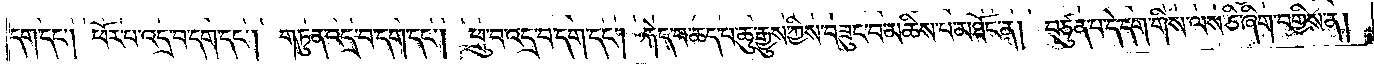དག་དང༌། ཕོར་པ་འདྲ་བ་དག་དང༌། གཏུན་འདྲ་བ་དག་དང༌། ཕྲུ་བ་འདྲ་བ་དག་དང༌། རྐེད་པ་ཆད་པ་ཆུ་རྒྱུས་ཀྱིས་བཟུང་བ་མཆིས་པ་མཐོང་ན། བཙུན་པ་དེ་དག་གིས་ལས་ཅི་ཞིག་བགྱིས་ན།
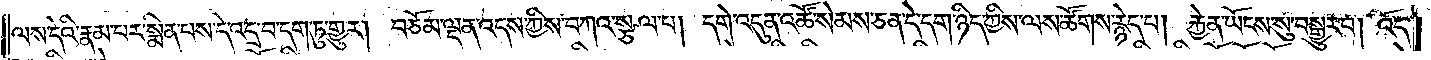ལས་དེའི་རྣམ་པར་སྨིན་པས་དེ་འདྲ་བ་དག་ཏུ་གྱུར། བཅོམ་ལྡན་འདས་ཀྱིས་བཀའ་སྩལ་པ། དགེ་འདུན་འཚོ་སེམས་ཅན་དེ་དག་ཉིད་ཀྱིས་ལས་ཚོགས་རྙེད་པ། རྐྱེན་ཡོངས་སུ་བསྒྱུར་བ། འོད་
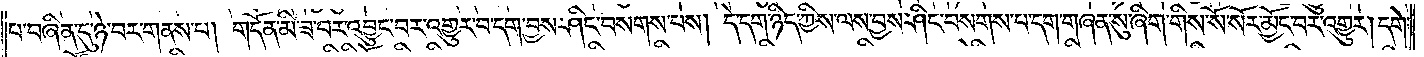པ་བཞིན་དུ་ཉེ་བར་གནས་པ། གདོན་མི་ཟ་བར་འབྱུང་བར་འགྱུར་བ་དག་བྱས་ཤིང་བསགས་པས། དེ་དག་ཉིད་ཀྱིས་ལས་བྱས་ཤིང་བསགས་པ་དག་གཞན་སུ་ཞིག་གིས་སོ་སོར་མྱོང་བར་འགྱུར། དགེ་
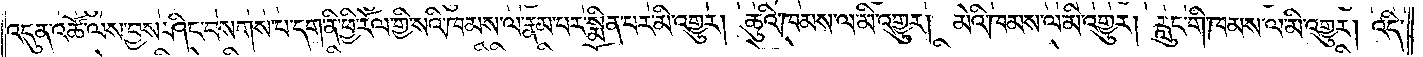འདུན་འཚོ་ལས་བྱས་ཤིང་བསགས་པ་དག་ནི་ཕྱི་རོལ་གྱི་སའི་ཁམས་ལ་རྣམ་པར་སྨིན་པར་མི་འགྱུར། ཆུའི་ཁམས་ལ་མི་འགྱུར། མེའི་ཁམས་ལ་མི་འགྱུར། རླུང་གི་ཁམས་ལ་མི་འགྱུར། འདི་
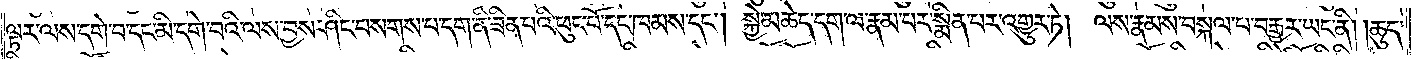ལྟར་ལས་དགེ་བ་དང་མི་དགེ་བའི་ལས་བྱས་ཤིང་བསགས་པ་དག་ནི་ཟིན་པའི་ཕུང་པོ་དང་ཁམས་དང༌། སྐྱེ་མཆེད་དག་ལ་རྣམ་པར་སྨིན་པར་འགྱུར་ཏེ། ལས་རྣམས་བསྐལ་པ་བརྒྱར་ཡང་ནི། །ཆུད་
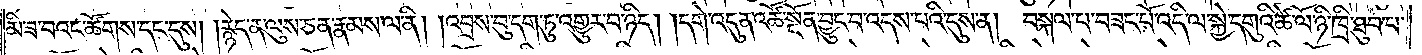མི་ཟ་བའང་ཚོགས་དང་དུས། །རྙེད་ན་ལུས་ཅན་རྣམས་ལ་ནི། །འབྲས་བུ་དག་ཏུ་འགྱུར་བ་ཉིད། །དགེ་འདུན་འཚོ་སྔོན་བྱུང་བ་འདས་པའི་དུས་ན། བསྐལ་པ་བཟང་པོ་འདི་ལ་སྐྱེ་དགུའི་ཚེ་ལོ་ཉི་ཁྲི་ཐུབ་པ་
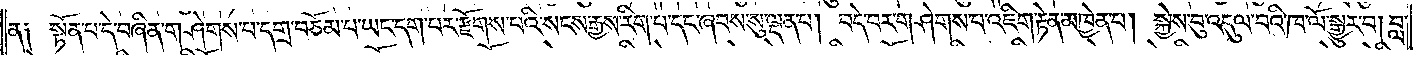ན ༑ སྟོན་པ་དེ་བཞིན་གཤེགས་པ་དགྲ་བཅོམ་པ་ཡང་དག་པར་རྫོགས་པའི་སངས་རྒྱས་རིག་པ་དང་ཞབས་སུ་ལྡན་པ། བདེ་བར་གཤེགས་པ་འཇིག་རྟེན་མཁྱེན་པ། སྐྱེས་བུ་འདུལ་བའི་ཁ་ལོ་སྒྱུར་བ། བླ་
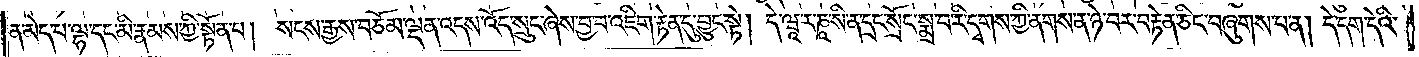ན་མེད་པ་ལྷ་དང་མི་རྣམས་ཀྱི་སྟོན་པ། སངས་རྒྱས་བཅོམ་ལྡན་འདས་འོད་སྲུང་ཞེས་བྱ་བ་འཇིག་རྟེན་དུ་བྱུང་སྟེ། དེ་ཝཱ་ར་ཎཱ་སི་ན་དྲང་སྲོང་སྨྲ་བ་རི་དྭགས་ཀྱི་ནགས་ན་ཉེ་བར་བརྟེན་ཅིང་བཞུགས་པ་ན། དེ་དག་དེའི་
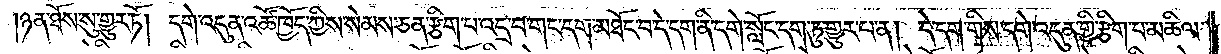ཉན་ཐོས་སུ་གྱུར་ཏོ། དགེ་འདུན་འཚོ་ཁྱོད་ཀྱིས་སེམས་ཅན་རྩིག་པ་འདྲ་བ་གང་དག་མཐོང་བ་དེ་དག་ནི་དགེ་སློང་དག་ཏུ་གྱུར་པ་ན། དེ་དག་གིས་དགེ་འདུན་གྱི་རྩིག་པ་མཆིལ་
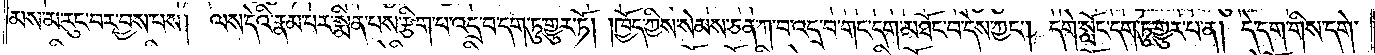མས་མ་རུང་བར་བྱས་པས། ལས་དེའི་རྣམ་པར་སྨིན་པས་རྩིག་པ་འདྲ་བ་དག་ཏུ་གྱུར་ཏོ། །ཁྱོད་ཀྱིས་སེམས་ཅན་ཀ་བ་འདྲ་བ་གང་དག་མཐོང་བ་དེས་ཀྱང༌། དགེ་སློང་དག་ཏུ་གྱུར་པ་ན། དེ་དག་གིས་དགེ་
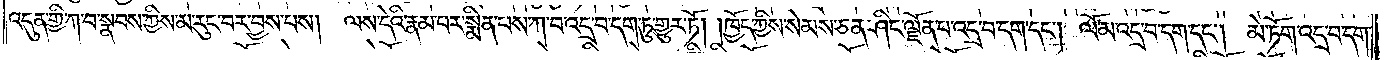འདུན་གྱི་ཀ་བ་སྣབས་ཀྱིས་མ་རུང་བར་བྱས་པས། ལས་དེའི་རྣམ་པར་སྨིན་པས་ཀ་བ་འདྲ་བ་དག་ཏུ་གྱུར་ཏོ། །ཁྱོད་ཀྱིས་སེམས་ཅན་ཤིང་ལྗོན་པ་འདྲ་བ་དག་དང༌། ལོ་མ་འདྲ་བ་དག་དང༌། མེ་ཏོག་འདྲ་བ་དག་
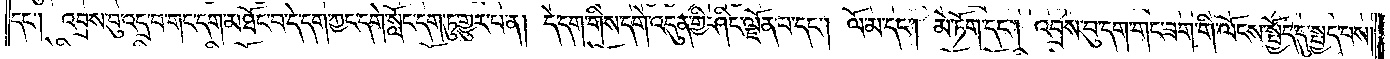དང༌། འབྲས་བུ་འདྲ་བ་གང་དག་མཐོང་བ་དེ་དག་ཀྱང་དགེ་སློང་དག་ཏུ་གྱུར་པ་ན། དེ་དག་གིས་དགེ་འདུན་གྱི་ཤིང་ལྗོན་པ་དང༌། ལོ་མ་དང༌། མེ་ཏོག་དང༌། འབྲས་བུ་དག་གང་ཟག་གི་ལོངས་སྤྱོད་དུ་སྤྱད་པས།
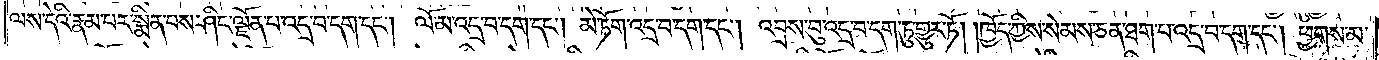ལས་དེའི་རྣམ་པར་སྨིན་པས་ཤིང་ལྗོན་པ་འདྲ་བ་དག་དང༌། ལོ་མ་འདྲ་བ་དག་དང༌། མེ་ཏོག་འདྲ་བ་དག་དང༌། འབྲས་བུ་འདྲ་བ་དག་ཏུ་གྱུར་ཏོ། །ཁྱོད་ཀྱིས་སེམས་ཅན་ཐག་པ་འདྲ་བ་དག་དང༌། ཕྱགས་མ་
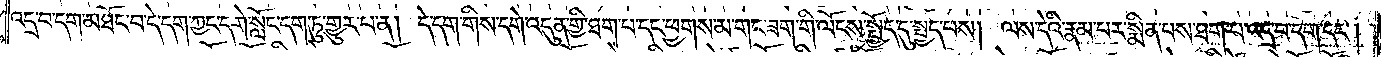འདྲ་བ་དག་མཐོང་བ་དེ་དག་ཀྱང་དགེ་སློང་དག་ཏུ་གྱུར་པ་ན། དེ་དག་གིས་དགེ་འདུན་གྱི་ཐག་པ་དང་ཕྱགས་མ་གང་ཟག་གི་ལོངས་སྤྱོད་དུ་སྤྱད་པས། ལས་དེའི་རྣམ་པར་སྨིན་པས་ཐག་པ་འདྲ་བ་དག་དང༌།
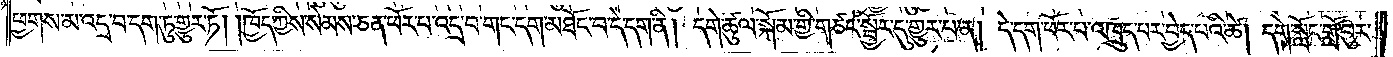ཕྱགས་མ་འདྲ་བ་དག་ཏུ་གྱུར་ཏོ། །ཁྱོད་ཀྱིས་སེམས་ཅན་ཕོར་པ་འདྲ་བ་གང་དག་མཐོང་བ་དེ་དག་ནི། དགེ་ཚུལ་སྐོམ་གྱི་གཙང་སྦྱོར་དུ་གྱུར་པ་ན། དེ་དག་ཕོར་པ་འཁྲུད་པར་བྱེད་པའི་ཚེ། དགེ་སློང་གློ་བུར་
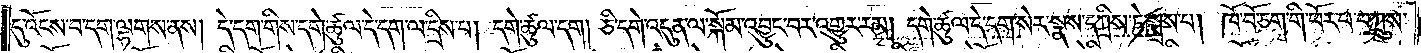དུ་འོངས་པ་དག་ལྷགས་ནས། དེ་དག་གིས་དགེ་ཚུལ་དེ་དག་ལ་དྲིས་པ། དགེ་ཚུལ་དག། ཅི་དགེ་འདུན་ལ་སྐོམ་འབྱུང་བར་འགྱུར་རམ། དགེ་ཚུལ་དེ་དག་སེར་སྣས་དཀྲིས་ཏེ་སྨྲས་པ། ཁོ་བོ་ཅག་གི་ཕོར་པ་བཀྲུས་
